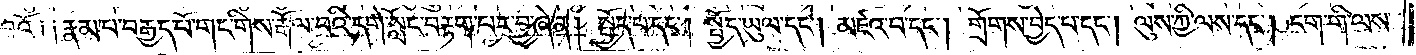བྱའོ༑ ༑རྣམ་པ་བརྒྱད་པོ་གང་གིས་རྒོལ་བའི་དགེ་སློང་བརྟག་པར་བྱ་ཞེ་ན། སྤྱོད་པ་དང༌། སྤྱོད་ཡུལ་དང༌། མཛའ་བ་དང༌། གྲོགས་བྱེད་པ་དང༌། ལུས་ཀྱི་ལས་དང༌། ངག་གི་ལས་
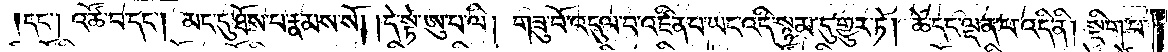དང༌། འཚོ་བ་དང༌། མང་དུ་ཐོས་པ་རྣམས་སོ། །དེ་སྟེ་ཨུ་པ་ལི། གཟུ་བོ་འདུལ་བ་འཛིན་པ་ཡང་འདི་སྙམ་དུ་གྱུར་ཏེ། ཚེ་དང་ལྡན་པ་འདི་ནི། སྡིག་པ་
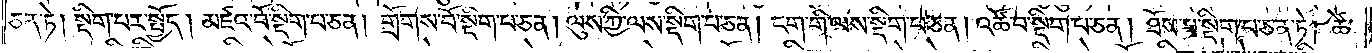ཅན་ཏེ། སྡིག་པར་སྤྱོད། མཛའ་བོ་སྡིག་པ་ཅན། གྲོགས་བོ་སྡིག་པ་ཅན། ལུས་ཀྱི་ལས་སྡིག་པ་ཅན། ངག་གི་ལས་སྡིག་པ་ཅན། འཚོ་བ་སྡིག་པ་ཅན། ཐོས་པ་སྡིག་པ་ཅན་ཏེ། ཚེ་
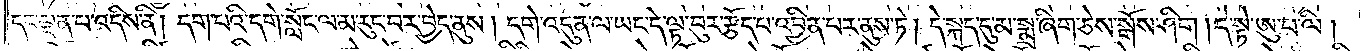དང་ལྡན་པ་འདིས་ནི། དག་པའི་དགེ་སློང་ལ་མ་རུང་བར་བྱེད་ནུས། དགེ་འདུན་ལ་ཡང་དེ་ལྟ་བུར་རྩོད་པ་འབྱིན་པར་ནུས་ཏེ། དེ་སྐད་དུ་མ་སྨྲ་ཞིག་ཅེས་སྒོས་ཤིག །དེ་སྟེ་ཨུ་པ་ལི།
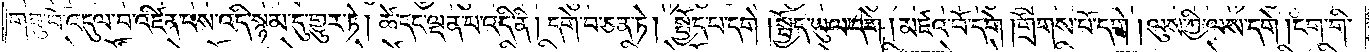གཟུ་བོ་འདུལ་བ་འཛིན་པས་འདི་སྙམ་དུ་གྱུར་ཏེ། ཚེ་དང་ལྡན་པ་འདི་ནི། དགེ་བ་ཅན་ཏེ། སྤྱོད་པ་དགེ། སྤྱོད་ཡུལ་དགེ། མཛའ་བོ་དགེ །གྲོགས་པོ་དགེ། ལུས་ཀྱི་ལས་དགེ། ངག་གི་
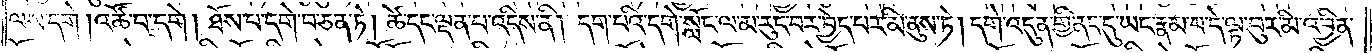ལས་དགེ། འཚོ་བ་དགེ། ཐོས་པ་དགེ་བ་ཅན་ཏེ། ཚེ་དང་ལྡན་པ་འདིས་ནི། དག་པའི་དགེ་སློང་ལ་མ་རུང་བར་བྱེད་པར་མི་ནུས་ཏེ། དགེ་འདུན་གྱི་ནང་དུ་ཡང་རྣམ་པ་དེ་ལྟ་བུར་མི་འབྱིན་
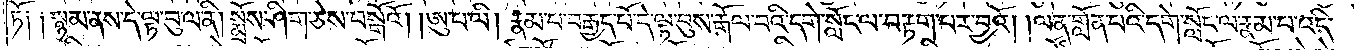ཏོ༑ ༑སྙམ་ནས་དེ་ལྟ་བུ་ལ་ནི། སྨྲོས་ཤིག་ཅེས་བསྒོའོ། །ཨུ་པ་ལི། རྣམ་པ་བརྒྱད་པོ་དེ་ལྟ་བུས་རྒོལ་བའི་དགེ་སློང་ལ་བརྟག་པར་བྱའོ། །ལན་གློན་པའི་དགེ་སློང་མ་རྣམ་པ་འདི་
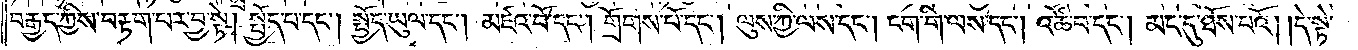བརྒྱད་ཀྱིས་བརྟག་པར་བྱ་སྟེ། སྤྱོད་པ་དང༌། སྤྱོད་ཡུལ་དང༌། མཛའ་བོ་དང༌། གྲོགས་པོ་དང༌། ལུས་ཀྱི་ལས་དང༌། ངག་གི་ལས་དང༌། འཚོ་བ་དང༌། མང་དུ་ཐོས་པའོ། །དེ་སྟེ་
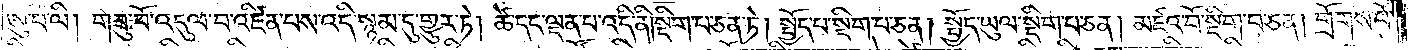ཨུ་པ་ལི། གཟུ་བོ་འདུལ་བ་འཛིན་པས་འདི་སྙམ་དུ་གྱུར་ཏེ། ཚེ་དང་ལྡན་པ་འདི་ནི། སྡིག་པ་ཅན་ཏེ། སྤྱོད་པ་སྡིག་པ་ཅན། སྤྱོད་ཡུལ་སྡིག་པ་ཅན། མཛའ་བོ་སྡིག་པ་ཅན། གྲོགས་པོ་
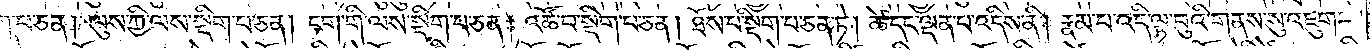སྡིག་པ་ཅན། ལུས་ཀྱི་ལས་སྡིག་པ་ཅན། ངག་གི་ལས་སྡིག་པ་ཅན། འཚོ་བ་སྡིག་པ་ཅན། ཐོས་པ་སྡིག་པ་ཅན་ཏེ། ཚེ་དང་ལྡན་པ་འདིས་ནི། རྣམ་པ་འདི་ལྟ་བུའི་གནས་སུ་འཇུག་
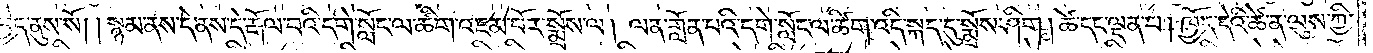པར་བྱེད་ནུས་སོ། །སྙམ་ནས་དེ་ནས་དེ་རྒོལ་བའི་དགེ་སློང་ལ་ཚིག་འཇམ་པོར་སྨྲོས་ལ། ལན་གློན་པའི་དགེ་སློང་ལ་ཚིག་འདི་སྐད་དུ་སྨྲོས་ཤིག །ཚེ་དང་ལྡན་པ། ཁྱོད་དེའི་ཚེ་ན་ལུས་ཀྱི་
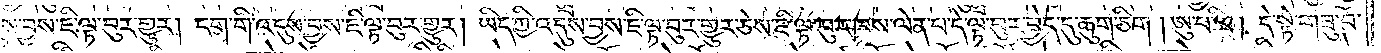འདུས་བྱས་ཇི་ལྟ་བུར་གྱུར། ངག་གི་འདུས་བྱས་ཇི་ལྟ་བུར་གྱུར། ཡིད་ཀྱི་འདུས་བྱས་ཇི་ལྟ་བུར་གྱུར་ཅེས་ཇི་ལྟ་བུར་ཁས་ལེན་པ་དེ་ལྟ་བུར་བྱེད་དུ་ཆུག་ཅིག །ཨུ་པ་ལི། དེ་སྟེ་གཟུ་བོ་
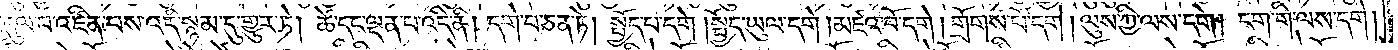འདུལ་བ་འཛིན་པས་འདི་སྙམ་དུ་གྱུར་ཏེ། ཚེ་དང་ལྡན་པ་འདི་ནི། དགེ་བ་ཅན་ཏེ། སྤྱོད་པ་དགེ །སྤྱོད་ཡུལ་དགེ། མཛའ་བོ་དགེ། གྲོགས་པོ་དགེ། ལུས་ཀྱི་ལས་དགེ། ངག་གི་ལས་དགེ།
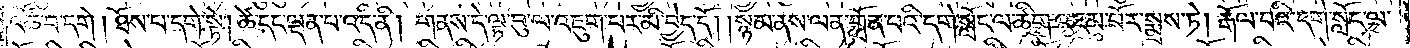འཚོ་བ་དགེ། ཐོས་པ་དགེ་སྟེ། ཚེ་དང་ལྡན་པ་འདི་ནི། གནས་དེ་ལྟ་བུ་ལ་འཇུག་པར་མི་བྱེད་དོ། །སྙམ་ནས་ལན་གློན་པའི་དགེ་སློང་ལ་ཚིག་འཇམ་པོར་སྨྲས་ཏེ། རྒོལ་བའི་དགེ་སློང་ལ་
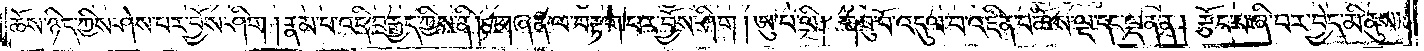ཆོས་ཉིད་ཀྱིས་ཤེས་པར་བྱོས་ཤིག །རྣམ་པ་འདི་བརྒྱད་ཀྱིས་ནི། གཞན་ལ་བརྟག་པར་བྱོས་ཤིག །ཨུ་པ་ལི། གཟུ་བོ་འདུལ་བ་འཛིན་པ་ཆོས་ལྔ་དང་ལྡན་ན། རྩོད་པ་ཞི་བར་བྱེད་མི་ནུས་
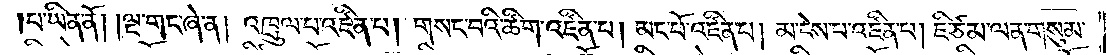པ་ཡིན་ནོ། །ལྔ་གང་ཞེ་ན། འཁྲུལ་པ་འཛིན་པ། གསང་བའི་ཚིག་འཛིན་པ། མང་པོ་འཛིན་པ། མ་ངེས་པ་འཛིན་པ། ཇི་ཙམ་ལན་གསུམ་
